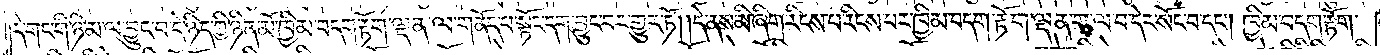དེ་གང་གི་ཉི་མ་ལ་བྱུང་བ་དེ་ཉིད་ཀྱི་ཉིན་མོ་ཁྱིམ་བདག་རྟོག་ལྡན་ལ་གནོད་པ་སྟོང་དག་བྱུང་བར་གྱུར་ཏོ༎དེ་ནས་མི་ཞིག་རིངས་པ་རིངས་པར་ཁྱིམ་བདག་རྟོག་ལྡན་ག་ལ་བ་དེར་སོང་བ་དང༌། ཁྱིམ་བདག་རྟོག་
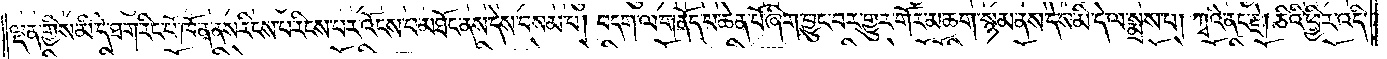ལྡན་གྱིས་མི་དེ་ཐག་རིང་པོ་ཁོ་ན་ནས་རིངས་པ་རིངས་པར་འོངས་པ་མཐོང་ནས་དེས་བསམ་པ། བདག་ལ་གནོད་པ་ཆེན་པོ་ཞིག་བྱུང་བར་གྱུར་གོར་མ་ཆག་སྙམ་ནས་དེས་མི་དེ་ལ་སྨྲས་པ། ཀྭའི་ནང་རྗེ། ཅིའི་ཕྱིར་འདི་
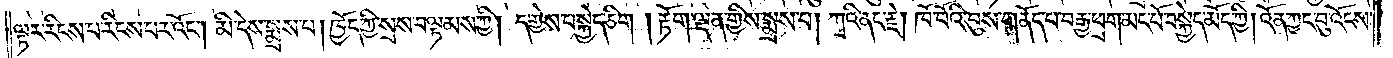ལྟར་རིངས་པ་རིངས་པར་འོང༌། མི་དེས་སྨྲས་པ། ཁྱོད་ཀྱི་སྲས་བལྟམས་ཀྱི། དགྱེས་བསྐྱེད་ཅིག །རྟོག་ལྡན་གྱིས་སྨྲས་པ། ཀྭའི་ནང་རྗེ། ཁོ་བོའི་བུས་གནོད་པ་བརྒྱ་ཕྲག་མང་པོ་བསྐྱེད་མོད་ཀྱི། འོན་ཀྱང་བུ་འོངས་
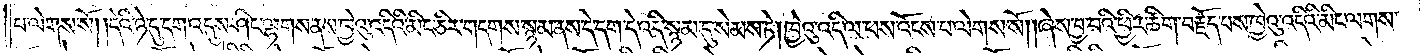པ་ལེགས་སོ༎དེའི་ཉེ་དུ་དག་འདུས་ཤིང་ལྷགས་ནས་ཁྱེའུ་འདིའི་མིང་ཅིར་གདགས་སྙམ་ནས་དེ་དག་དེ་འདི་སྙམ་དུ་སེམས་ཏེ།ཁྱེའུ་འདི་ལ་ཕས་འོངས་པ་ལེགས་སོ༎ཞེས་བྱ་བའི་ཕྱིར་ཚིག་བརྗོད་པས་ཁྱེའུ་འདིའི་མིང་ལགས་
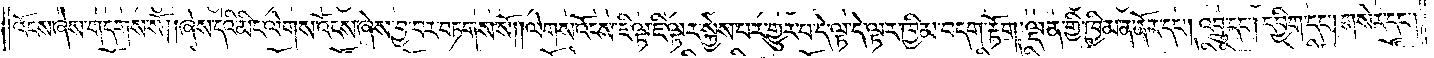འོངས་ཞེས་གདགས་སོ༎ཞེས་དེའི་མིང་ལེགས་འོངས་ཞེས་བྱ་བར་བཏགས་སོ༎ལེགས་འོངས་ཇི་ལྟ་ཇི་ལྟར་སྐྱེས་པར་གྱུར་པ་དེ་ལྟ་དེ་ལྟར་ཁྱིམ་བདག་རྟོག་ལྡན་གྱི་ཁྱིམ་ན་ནོར་དང༌། འབྲུ་དང༌། དབྱིག་དང༌། གསེར་དང་།
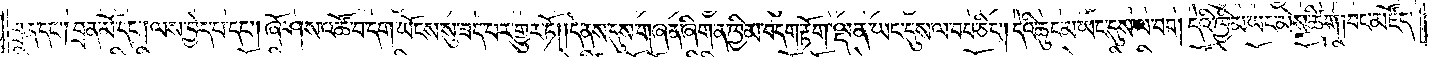བྲན་དང༌། བྲན་མོ་དང༌། ལས་བྱེད་པ་དང༌། ཞོ་ཤས་འཚོ་བ་དག་ཡོངས་སུ་ཟད་པར་གྱུར་ཏོ༎དེ་ནས་དུས་གཞན་ཞིག་ན་ཁྱིམ་བདག་རྟོག་ལྡན་ཡང་དུས་ལ་བབ་ཅིང༌། དེའི་ཆུང་མ་ཡང་དུས་ལ་བབ། དེའི་ཁྱིམ་ཡང་མེས་ཚིག།བང་མཛོད་
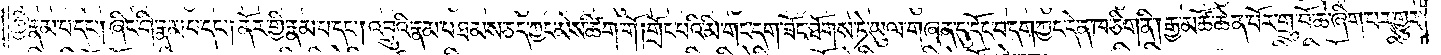ཀྱི་རྣམ་པ་དང༌། ཞིང་གི་རྣམ་པ་དང༌། ནོར་གྱི་རྣམ་པ་དང༌། འབྲུའི་རྣམ་པ་ཐམས་ཅད་ཀྱང་མེས་ཚིག་གོ།གྲོང་པའི་མི་གང་དག་ཟོང་ཐོགས་ཏེ་ཡུལ་གཞན་དུ་དོང་བ་དག་ཀྱང་དེ་ན་ཁ་ཅིག་ནི། རྒྱ་མཚོ་ཆེན་པོར་གྲུ་བོ་ཆེ་ཞིག་པར་གྱུར་
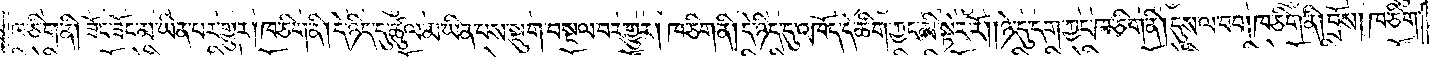ཁ་ཅིག་ནི། ཟོང་ཟོང་མ་ཡིན་པར་གྱུར། ཁ་ཅིག་ནི། དེ་ཉིད་དུ་ཚུལ་མ་ཡིན་པས་སྡུག་བསྔལ་བར་གྱུར། ཁ་ཅིག་ནི། དེ་ཉིད་དུ་འཁོད་དེ་ཚིག་ཀྱང་མི་སྟེར་རོ། །ཉེ་དུ་དག་ཀྱང་ཁ་ཅིག་ནི། དུས་ལ་བབ། ཁ་ཅིག་ནི། བྲོས། ཁ་ཅིག་
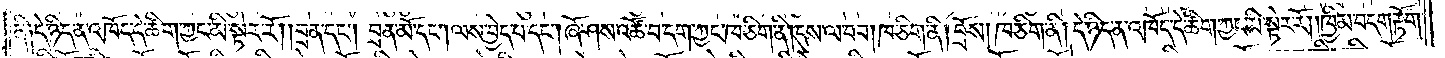ནི། དེ་ཉིད་ན་འཁོད་དེ་ཚིག་ཀྱང་མི་སྟེར་རོ། །བྲན་དང༌། བྲན་མོ་དང༌། ལས་བྱེད་པ་དང༌། ཞོ་ཤས་འཚོ་བ་དག་ཀྱང་ཁ་ཅིག་ནི། དུས་ལ་བབ། ཁ་ཅིག་ནི། བྲོས། ཁ་ཅིག་ནི། དེ་ཉིད་ན་འཁོད་དེ་ཚིག་ཀྱང་མི་སྟེར་རོ། །ཁྱིམ་བདག་རྟོག་
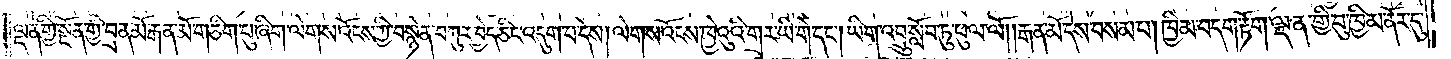ལྡན་གྱི་སྔོན་གྱི་བྲན་མོ་རྒན་མོ་གཅིག་པུ་ཞིག་ལེགས་འོངས་ཀྱི་བསྙེན་བཀུར་བྱེད་ཅིང་འདུག་པ་དེས། ལེགས་འོངས་ཁྱེའུའི་གྲྭར་ཡི་གེ་དང༌། ཡིག་འབྲུ་སློབ་ཏུ་ཕུལ་ལོ། །རྒན་མོ་དེས་བསམ་པ། ཁྱིམ་བདག་རྟོག་ལྡན་གྱི་བུ་ཁྱིམ་ནོར་དུ།
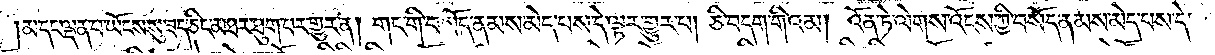མ་དང་ལྡན་པ་ཡོངས་སུ་ཟད་ཅིང་མཐར་ཐུག་པར་གྱུར་ན། གང་གི་བསོད་ནམས་མེད་པས་དེ་ལྟར་གྱུར་པ། ཅི་བདག་གི་འམ། འོན་ཏེ་ལེགས་འོངས་ཀྱི་བསོད་ནམས་མེད་པས་དེ་
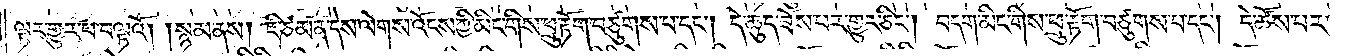ལྟར་གྱུར་པ་བལྟའོ། །སྙམ་ནས། ཇི་ཙམ་ན་དེས་ལེགས་འོངས་ཀྱི་མིང་གིས་ཕྲུ་རྟོག་བཙུགས་པ་དང༌། དེ་ཆུད་ཟོས་པར་གྱུར་ཅིག །བདག་མིང་གིས་ཕྲུ་རྟོག་བཙུགས་པ་དང༌། དེ་ཚོས་པར་
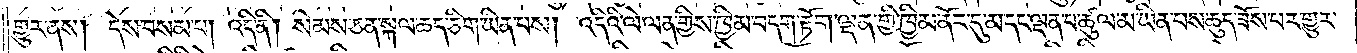གྱུར་ནས། དེས་བསམ་པ། འདི་ནི། སེམས་ཅན་སྐལ་ཆད་ཅིག་ཡིན་པས། འདིའི་ལེ་ལན་གྱིས་ཁྱིམ་བདག་རྟོག་ལྡན་གྱི་ཁྱིམ་ནོར་དུ་མ་དང་ལྡན་པ་ཚུལ་མ་ཡིན་པས་ཆུད་ཟོས་པར་གྱུར་
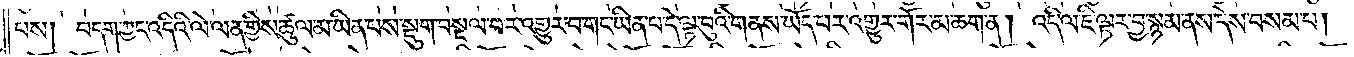པས། བདག་ཀྱང་འདིའི་ལེ་ལན་གྱིས་ཚུལ་མ་ཡིན་པས་སྡུག་བསྔལ་བར་འགྱུར་བ་གང་ཡིན་པ་དེ་ལྟ་བུའི་གནས་ཡོད་པར་འགྱུར་གོར་མ་ཆག་ན། འདི་ལ་ཇི་ལྟར་བྱ་སྙམ་ནས་དེས་བསམ་པ།
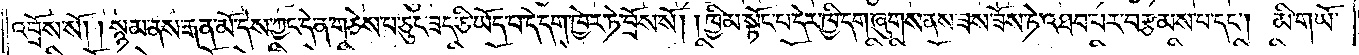འབྲོས་སོ། །སྙམ་ནས་རྒན་མོ་དེས་ཀྱང་དེ་ན་གཅེས་པ་ཅུང་ཟད་ཅི་ཡོད་པ་དེ་དག་ཁྱེར་ཏེ་བྲོས་སོ། །ཁྱིམ་སྟོང་པ་དེར་ཁྱི་དག་ཞུགས་ནས་ཟས་ཟོས་ཏེ་འཐབ་པར་བརྩམས་པ་དང༌། མི་གཡོ་
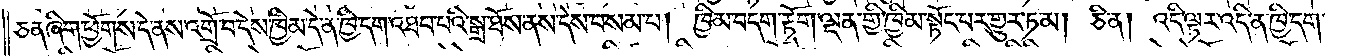ཅན་ཞིག་ཕྱོགས་དེ་ནས་འགྲོ་བ་དེས་ཁྱིམ་དེ་ན་ཁྱི་དག་འཐབ་པའི་སྒྲ་ཐོས་ནས་དེས་བསམ་པ། ཁྱིམ་བདག་རྟོག་ལྡན་གྱི་ཁྱིམ་སྟོང་པར་གྱུར་ཏམ། ཅི་ན། འདི་ལྟར་འདི་ན་ཁྱི་དག་
